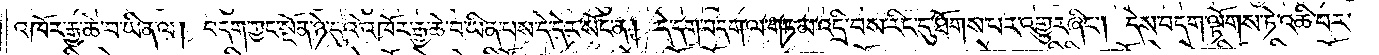འཁོར་རྒྱ་ཆེ་བ་ཡིན་ལ། བདག་ཀྱང་སྔོན་ཉེ་དུའི་འཁོར་རྒྱ་ཆེ་བ་ཡིན་པས་དེ་དེར་སོང་ན། དེ་དག་བདག་ལ་གཏམ་འདྲི་བས་རིང་དུ་ཐོགས་པར་འགྱུར་ཞིང༌། དེས་བདག་ལྟོགས་ཏེ་འཆི་བར་
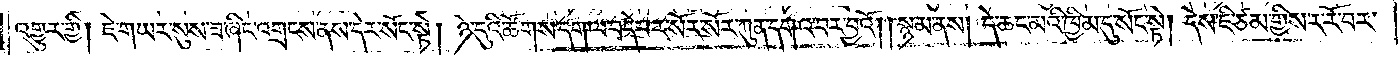འགྱུར་གྱི། ཇེ་གཡར་སུས་ཟ་ཞིང་འགྲངས་ནས་དེར་སོང་སྟེ། ཉེ་དུའི་ཚོགས་དག་ལ་བདེ་བར་སོར་སོར་ཀུན་དགའ་བར་བྱའོ། །སྙམ་ནས། དེ་ཆང་མའི་ཁྱིམ་དུ་སོང་སྟེ། དེས་ཇི་ཙམ་གྱིས་ར་རོ་བར་
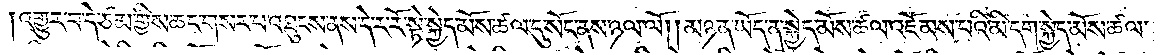འགྱུར་བ་དེ་ཙམ་གྱིས་ཆང་གསར་པ་འཐུངས་ནས་དེ་ར་རོ་སྟེ་སྐྱེད་མོས་ཚལ་དུ་སོང་ནས་ཉལ་ལོ། །མཉན་ཡོད་ན་སྐྱེད་མོས་ཚལ་འཇོམས་པའི་མི་དག་སྐྱེད་མོས་ཚལ་
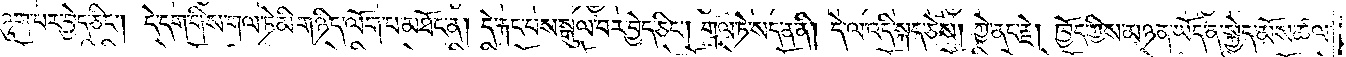ཉུག་པར་བྱེད་ཅིང༌། དེ་དག་གིས་གལ་ཏེ་མི་གཉིད་ལོག་པ་མཐོང་ན། དེ་རྐང་པས་སྒུལ་བར་བྱེད་ཅིང༌། གལ་ཏེ་སད་ན་ནི། དེ་ལ་འདི་སྐད་ཅེས། ཀྱེ་ནང་རྗེ། ཁྱོད་ཀྱིས་མཉན་ཡོད་ན་སྐྱེད་མོས་ཚལ་
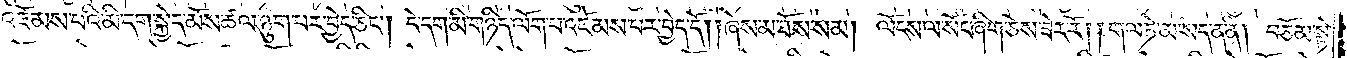འཇོམས་པའི་མི་དག་སྐྱེད་མོས་ཚལ་ཉུག་པར་བྱེད་ཅིང༌། དེ་དག་མི་གཉིད་ལོག་པ་འཇོམས་པར་བྱེད་དོ། །ཞེས་མ་ཐོས་སམ། ལོངས་ལ་སོང་ཞིག་ཅེས་ཟེར་རོ། །གལ་ཏེ་མ་སད་ན་ནི། བཅོམ་སྟེ་
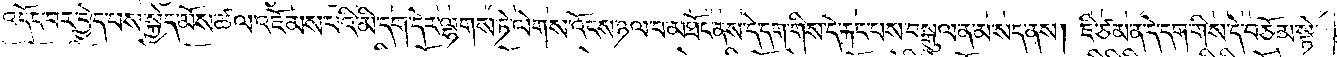འདོང་བར་བྱེད་པས་སྐྱེད་མོས་ཚལ་འཇོམས་པའི་མི་དག་དེར་ལྷགས་ཏེ་ལེགས་འོངས་ཉལ་བ་མཐོང་ནས་དེ་དག་གིས་དེ་རྐང་པས་བསྒུལ་ན་མ་སད་ནས། ཇི་ཙམ་ན་དེ་དག་གིས་དེ་བཅོམ་སྟེ་
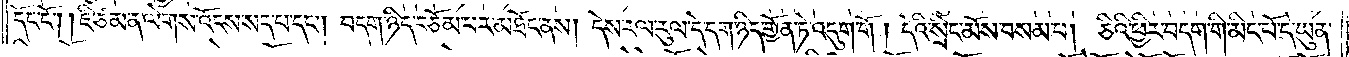དོང་ངོ༌། །ཇི་ཙམ་ན་ལེགས་འོངས་སད་པ་དང༌། བདག་ཉིད་བཅོམ་པར་མཐོང་ནས། དེས་རལ་རུལ་དེ་དག་ཉིད་གྱོན་ཏེ་འདུག་གོ །དེའི་སྲིང་མོས་བསམ་པ། ཅིའི་ཕྱིར་བདག་གི་མིང་པོ་དེ་ཡུན་
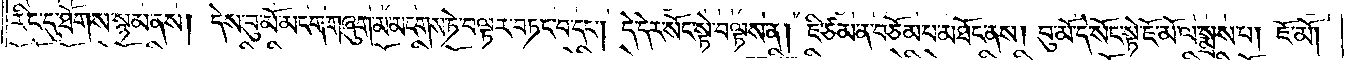རིང་དུ་ཐོགས་སྙམ་ནས། དེས་བུ་མོ་མངག་གཞུག་མ་མངགས་ཏེ་བལྟར་བཏང་བ་དང༌། དེ་དེར་སོང་སྟེ་བལྟས་ན། ཇི་ཙམ་ན་བཅོམ་པ་མཐོང་ནས། བུ་མོ་དེ་སོང་སྟེ་ཇོ་མོ་ལ་སྨྲས་པ། ཇོ་མོ།
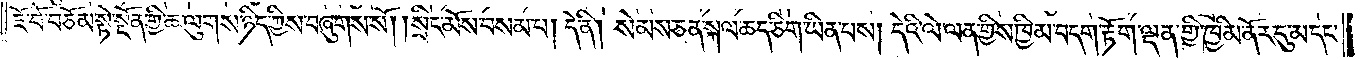ཇོ་བོ་བཅོམ་སྟེ་སྔོན་གྱི་ཆ་ལུགས་ཉིད་ཀྱིས་བཞུགས་སོ། །སྲིང་མོས་བསམ་པ། དེ་ནི། སེམས་ཅན་སྐལ་ཆད་ཅིག་ཡིན་པས། དེའི་ལེ་ལན་གྱིས་ཁྱིམ་བདག་རྟོག་ལྡན་གྱི་ཁྱིམ་ནོར་དུ་མ་དང་
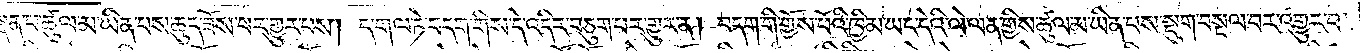ལྡན་པ་ཚུལ་མ་ཡིན་པས་ཆུད་ཟོས་པར་གྱུར་པས། ད་གལ་ཏེ་བདག་གིས་དེ་འདིར་བཅུག་པར་གྱུར་ན། བདག་གི་གྱོས་པོའི་ཁྱིམ་ཡང་དེའི་ལེ་ལན་གྱིས་ཚུལ་མ་ཡིན་པས་སྡུག་བསྔལ་བར་འགྱུར་བ་
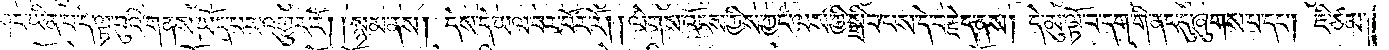གང་ཡིན་པ་དེ་ལྟ་བུའི་གནས་ཡོད་པར་འགྱུར་རོ། །སྙམ་ནས། དེས་དེ་ཡལ་བར་བོར་རོ། །ལེགས་འོངས་ཀྱིས་ཀྱང་ལས་ཀྱི་སྒྲིབ་པས་དེ་བརྗེད་ནས། དེ་མུ་ལྟོ་བ་དག་གི་ནང་དུ་ཞུགས་པ་དང༌། ཇི་ཙམ་
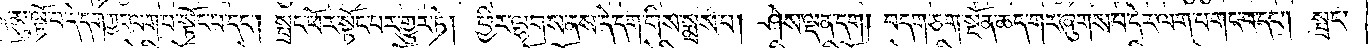ན་མུ་ལྟོ་བ་དེ་དག་ཀྱང་ལག་པ་སྟོང་པ་དང༌། སྤྲང་ཕོར་སྟོང་པར་གྱུར་ཏེ། ཕྱིར་ལྷགས་ནས་དེ་དག་གིས་སྨྲས་པ། ཤེས་ལྡན་དག། བདག་ཅག་སྔོན་ཆད་གར་ཞུགས་པ་དེར་ལག་པ་གང་བ་དང༌། སྤྲང་
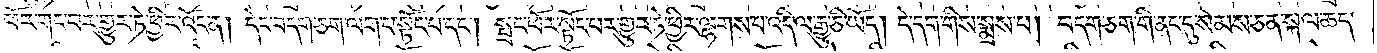ཕོར་གང་བར་གྱུར་ཏེ་ཕྱིར་འོང་ན། དེང་བདག་ཅག་ལག་པ་སྟོང་པ་དང༌། སྤྲང་ཕོར་སྟོང་པར་གྱུར་ཏེ་ཕྱིར་ལྷགས་པ་འདི་ལ་རྒྱུ་ཅི་ཡོད། དེ་དག་གིས་སྨྲས་པ། བདག་ཅག་གི་ནང་དུ་སེམས་ཅན་སྐལ་ཆད་
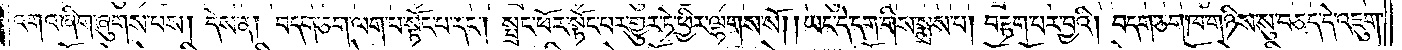འགའ་ཞིག་ཞུགས་པས། དེས་ན། བདག་ཅག་ལག་པ་སྟོང་པ་དང༌། སྤྲང་ཕོར་སྟོང་པར་གྱུར་ཏེ་ཕྱིར་ལྷགས་སོ། །ཡང་དེ་དག་གིས་སྨྲས་པ། བརྟག་པར་བྱའི། བདག་ཅག་ཁ་གཉིས་སུ་བཅད་དེ་འཇུག་
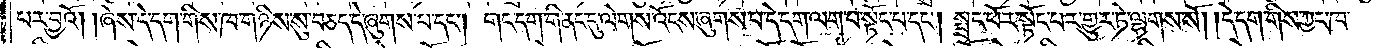པར་བྱའོ། །ཞེས་དེ་དག་གིས་ཁ་གཉིས་སུ་བཅད་དེ་ཞུགས་པ་དང༌། གང་དག་གི་ནང་དུ་ལེགས་འོངས་ཞུགས་པ་དེ་དག་ལག་པ་སྟོང་པ་དང༌། སྤྲང་ཕོར་སྟོང་པར་གྱུར་ཏེ་ལྷགས་སོ། །དེ་དག་གིས་ཀྱང་ཁ་
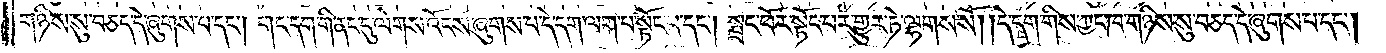གཉིས་སུ་བཅད་དེ་ཞུགས་པ་དང༌། གང་དག་གི་ནང་དུ་ལེགས་འོངས་ཞུགས་པ་དེ་དག་ལག་པ་སྟོང་པ་དང༌། སྤྲང་ཕོར་སྟོང་པར་གྱུར་ཏེ་ལྷགས་སོ། །དེ་དག་གིས་ཀྱང་ཁ་གཉིས་སུ་བཅད་དེ་ཞུགས་པ་དང༌།
